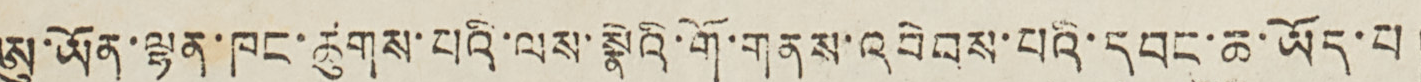ཨུ་ཡོན་ལྷན་ཁང་ཚུགས་པའི་ལས་སྣེའི་གོ་གནས་འབེབས་པའི་དབང་ཆ་ཡོད་པ།
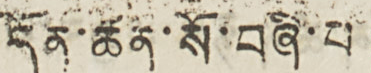དོན་ཚན་སོ་བཞི་པ།
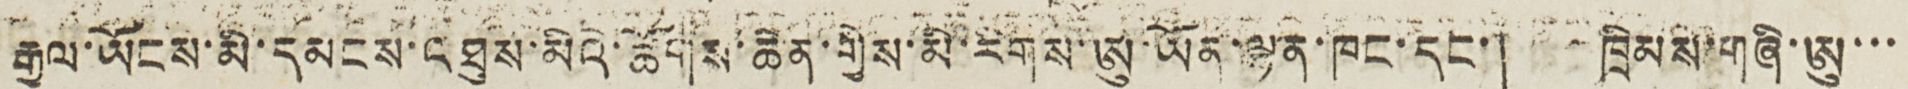རྒྱལ་ཡོངས་མི་དམངས་འཐུས་མིའི་ཚོགས་ཆེན་གྱིས་མི་རིགས་ཨུ་ཡོན་ལྷན་ཁང་དང་། ཁྲིམས་གཞི་ཨུ་་་
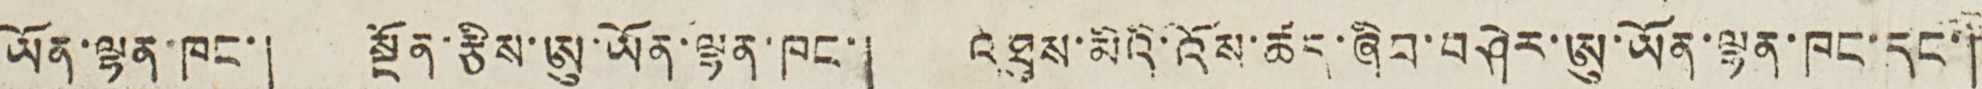ཡོན་ལྷན་ཁང་། སྔོན་རྩིས་ཨུ་ཡོན་ལྷན་ཁང་། འཐུས་མིའི་འོས་ཚད་ཞིབ་བཤེར་ཨུ་ཡོན་ལྷན་ཁང་དང་།
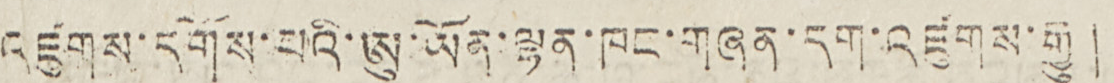འཛུགས་དགོས་པིའ་ཨུ་ཡོན་ལྷན་ཁང་གཞན་དག་འཛུགས་རྒྱུ།
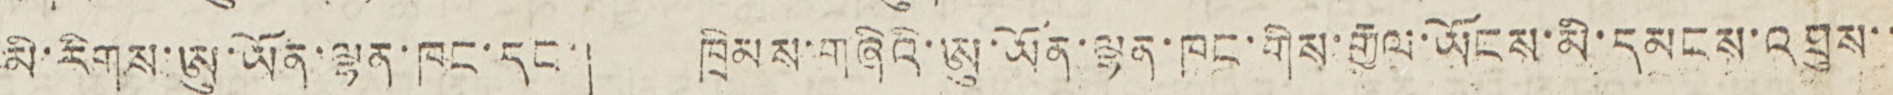མི་རིགས་ཨུ་ཡོན་ལྷན་ཁང་དང་། ཁྲིམས་གཞིའི་ཨུ་ཡོན་ལྷན་ཁང་གིས་རྒྱལ་ཡོངས་མི་དམངས་འཐུས་་
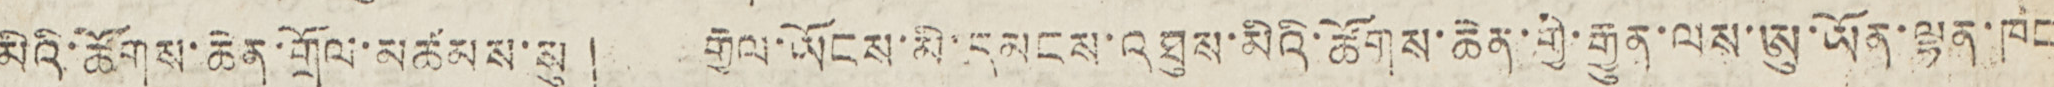མིའི་ཚོགས་ཆེན་གྲོལ་མཚམས་སུ། རྒྱལ་ཡོངས་མི་དམངས་འཐུས་མིའི་ཚོགས་ཆེན་གྱི་རྒྱུན་ལས་ཨུ་ཡོན་ལྷན་ཁང
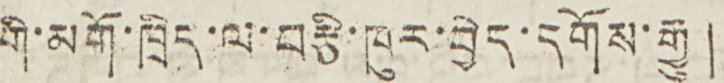གི་མགོ་ཁྲིད་ལ་བརྩི་ཁུར་བྱེད་དགོས་རྒྱུ།
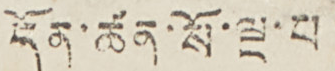དོན་ཚན་སོ་ལྔ་པ།
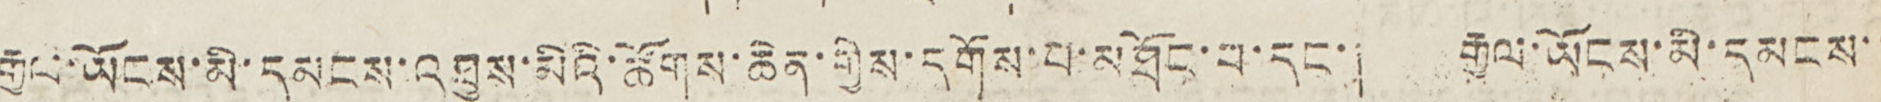རྒྱལ་ཡོངས་མི་དམངས་འཐུས་མིའི་ཚོགས་ཆེན་གྱིས་དགོས་པ་མཐོང་བ་དང་། རྒྱལ་ཡོངས་མི་དམངས་་
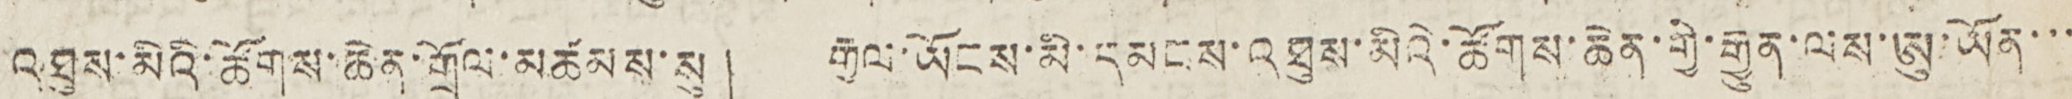འཐུས་མིའི་ཚོགས་ཆེན་གྲོལ་མཚམས་སུ། རྒྱལ་ཡོངས་མི་དམངས་འཐུས་མིའི་ཚོགས་ཆེན་གྱི་རྒྱུན་ལས་ཨུ་ཡོན་་་
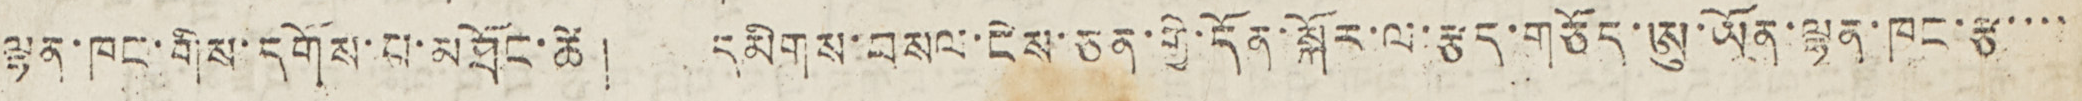ལྷན་ཁང་གིས་དགོས་པ་མཐོང་ཚེ། དམིགས་བསལ་ངེས་ཅན་གྱི་དོན་སྐོར་ལ་རྩད་གཅོད་ཨུ་ཡོན་ལྷན་ཁང་རྩ་་་་
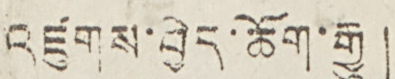འཛུགས་བྱེད་ཆོག་རྒྱུ།
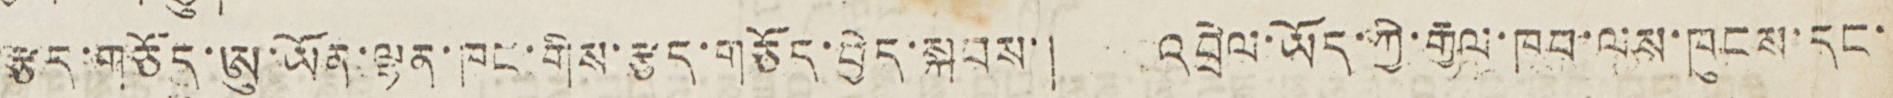རྩད་གཅོད་ཨུ་ཡོན་ལྷན་ཁང་གིས་རྩད་གཅོད་བྱེད་སྐབས་། འབྲེལ་ཡོད་ཀྱི་རྒྱལ་ཁབ་ལས་ཁུངས་དང་།
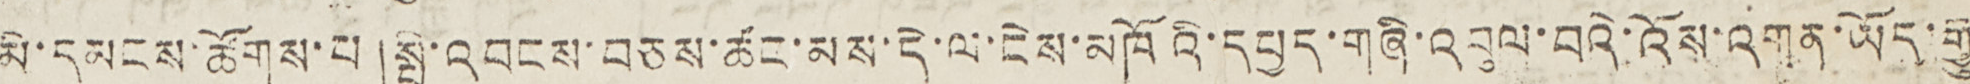མི་དམངས་ཚོགས་པ། སྤྱི་འབངས་བཅས་ཚང་མས་དེ་ལ་ངེས་མཁོའི་དཔྱད་གཞི་འབུལ་བའི་འོས་འགན་ཡོད་རྒྱུ།
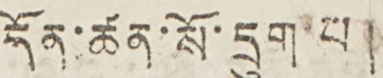དོན་ཚན་སོ་དྲུག་པ།
